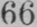66
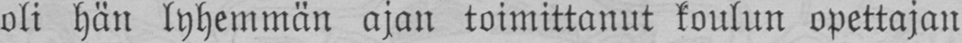oli hän lyhemmän ajan toimittanut koulun opettajan
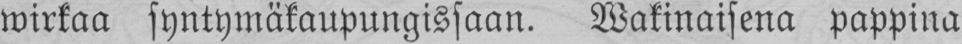wirkaa syntymäkaupungissaan. Wakinaisena pappina
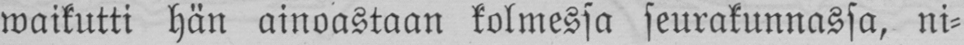waikutti hän ainoastaan kolmessa seurakunnassa, ni-
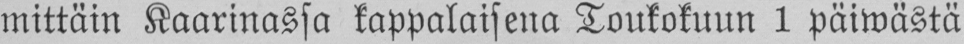mittäin Kaarinassa kappalaisena Toukokuun 1 päiwästä
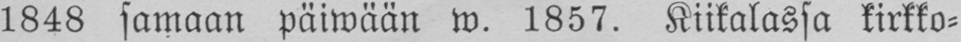1848 samaan päiwään w. 1857. Kiikalassa kirkko-
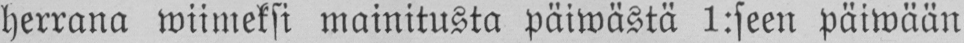herrana wiimeksi mainitusta päiwästä 1:seen päiwään
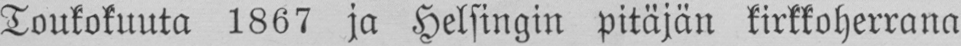Toukokuuta 1867 ja Helsingin pitäjän kirkkoherrana
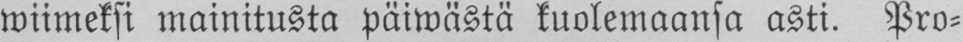wiimeksi mainitusta päiwästä kuolemaansa asti. Pro-
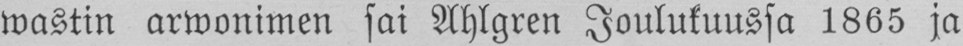wastin arwonimen sai Ahlgren Joulukuussa 1865 ja
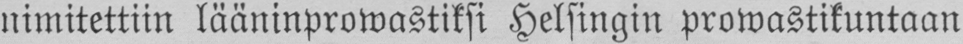nimitettiin lääninprowastiksi Helsingin prowastikuntaan
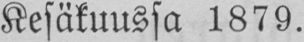Kesäkuussa 1879.
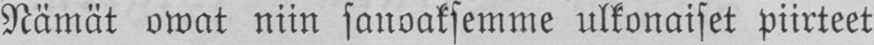Nämät owat niin sanoaksemme ulkonaiset piirteet
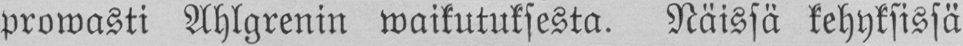prowasti Ahlgrenin waikutuksesta. Näissä kehyksissä
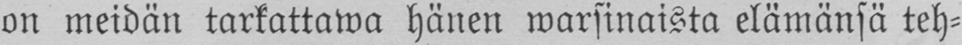on meidän tarkattawa hänen warsinaista elämänsä teh-
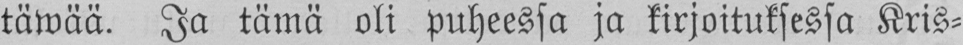täwää. Ja tämä oli puheessa ja kirjoituksessa Kris-
